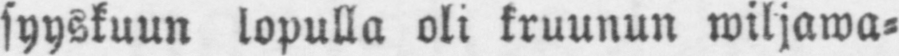syyskuun lopulla oli kruunun wiljawa-
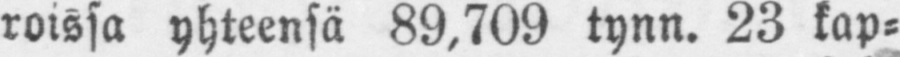roissa yhteensä 89,709 tynn. 23 kap-
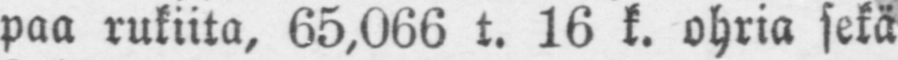paa rukiita, 65,066 t. 16 k. ohria sekä
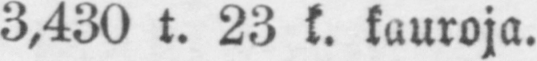3,430 t. 23 k. kauroja.
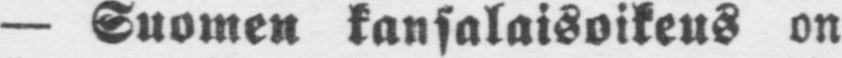— Suomen kansalaisoikeus on
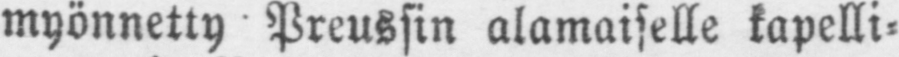myönnetty Preussin alamaiselle kapelli-
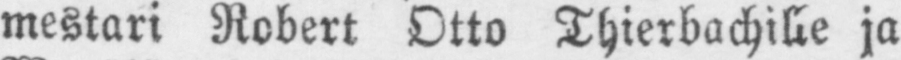mestari Robert Otto Thierbachille ja
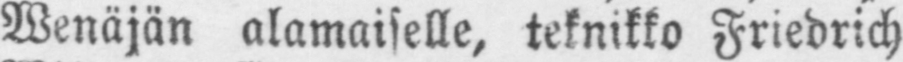Wenäjän alamaiselle, teknikko Friedrich
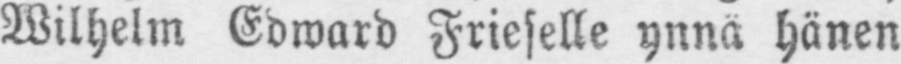Wilhelm Edward Frieselle ynnä hänen
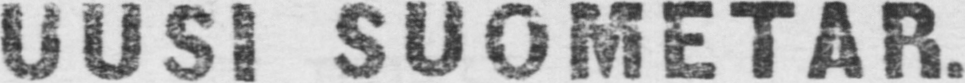UUSI SUOMETAR.
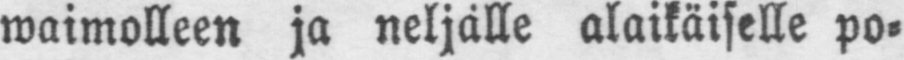waimolleen ja neljälle alaikäiselle po-
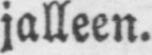jalleen.
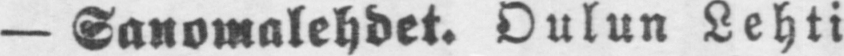— Sanomalehdet. Oulun Lehti
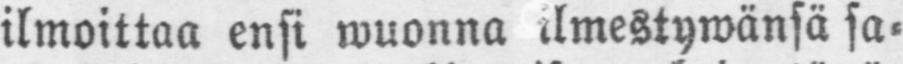ilmoittaa ensi wuonna ilmestywänsä sa-
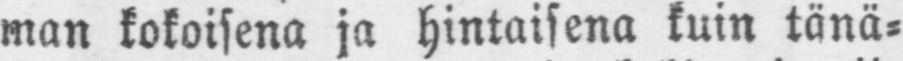man kokoisena ja hintaisena kuin tänä-
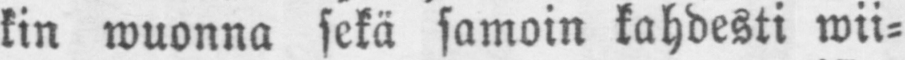kin wuonna sekä samoin kahdesti wii-
